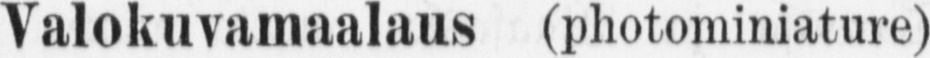Valokuvamaalaus (photominiature)
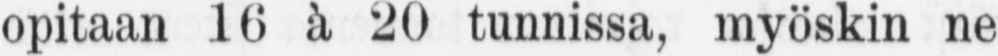opitaan 16 à 20 tunnissa, myöskin ne
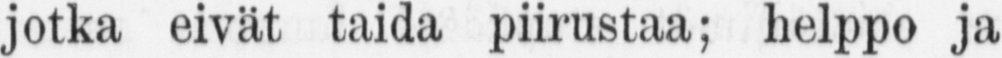jotka eivät taida piirustaa; helppo ja
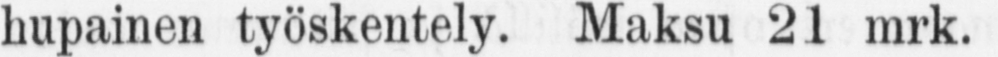hupainen työskentely- Maksu 21 mrk.
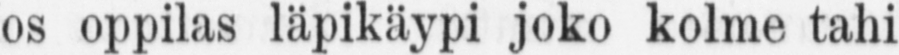Jos oppilas läpikäypi joko kolme tahi
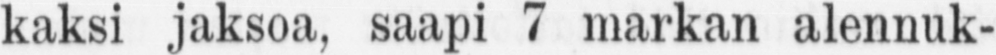kaksi jaksoa, saapi 7 markan alennuk-
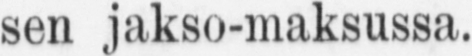sen jakso-maksussa.
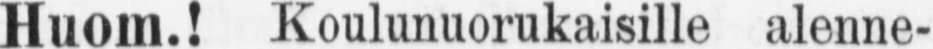Huom.! Koulunuorukaisille alenne-
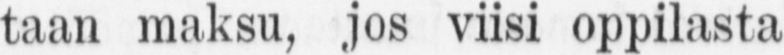taan maksu, jos viisi oppilasta
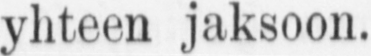yhteen jaksoon.
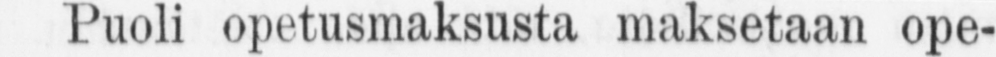Puoli opetusmaksusta maksetaan ope-
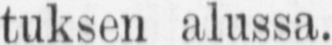tuksen alussa.
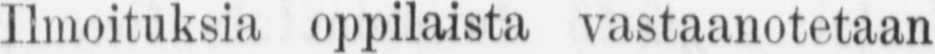Ilmoituksia oppilaista vastaanotetaan
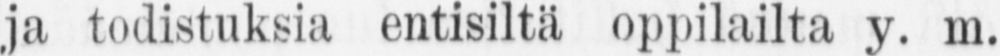ja todistuksia entisilta oppilailta y. m.
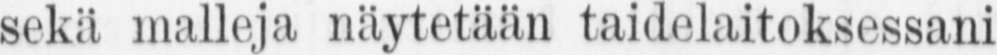sekä malleja taidelaitoksessani
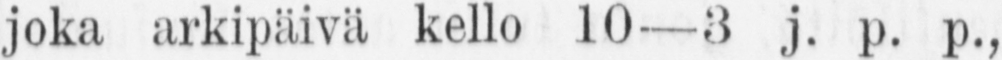joka arkipäiviä kello 10—3 j. p. p.,
